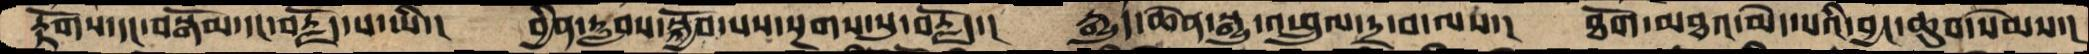རྟོགས་དང་བསྒོམ་དང་བརྗོད་པ་ཡི་།  བྱིན་རླབས་སྐྱོབ་པས་སྔགས་སུ་བརྗོད་།  རྒྱུད་ཆེན་སྒྱུ་འཕྲུལ་དྲ་བ་ལས་།  ཐོག་མཐའ་མེད་པའི་བྱང་ཆུབ་སེམས་།
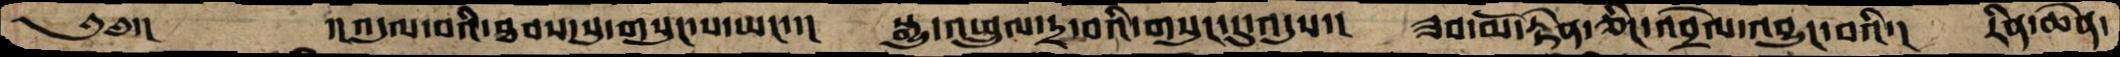༄༅་།       ་།འདུལ་བའི་ཐབས་སུ་གསུང་པ་ཡང་་།  སྒྱུ་འཕྲུལ་དྲ་བའི་གསུང་དུ་འདུས་།  ཟབ་མོ་རྟེན་ཅིང་འབྲེལ་འབྱུང་བའི་།  རིན་ཆེན་
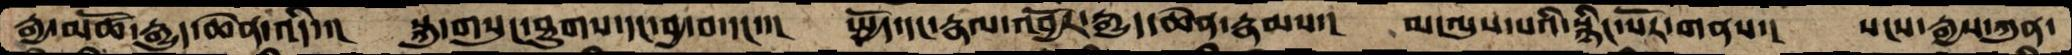རྒྱ་མཚོ་རྒྱུད་ཆེན་འདི་།  སྐུ་གསུང་ཐུགས་དང་བྱ་བ་དང་་།  སྤྱོད་དང་རྣལ་འབྱོར་རྒྱུད་ཆེན་རྣམས་།  མ་ལུས་པའི་སྙིང་པོར་གནས་།  སངས་རྒྱས་ཀུན་
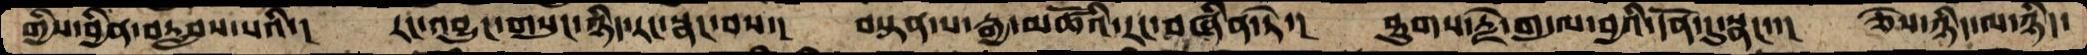གྱིས་བྱིན་བརླབས་པའི་།  རང་འབྱུང་གསུང་ཉིད་རང་སྣང་བས་།  བསྟན་པ་རྒྱ་མཚོའི་རང་བཞིན་ཏེ་།  ཐུགས་རྗེ་གདུལ་བྱའི་དོན་དུ་སྣང་་།  ཅེས་ཉིད་ལ་ཉིད་
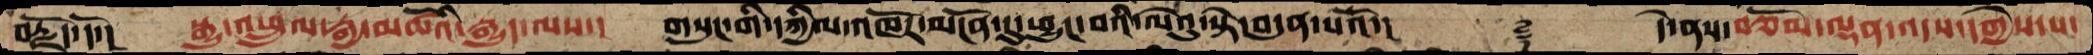བརྗོད་དོ་།   སྒྱུ་འཕྲུལ་རྒྱ་མཚོའི་རྒྱུད་ལས་།   གསུང་གི་དཀྱིལ་འཁོར་མངོན་དུ་ཕྱུང་བའི་ལེའུ་སྟེ་བདུན་པའོ་།     ࿑  དེ་ནས་བཅོམ་ལྡན་འདས་དགྱེས་པ་
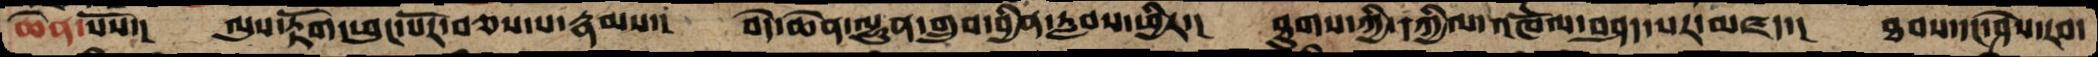ཆེན་པོས་།    ལུས་རྟོག་ཕུང་པོར་བཅས་པ་རྣམས་།  བདེ་ཆེན་ལྷུན་གྲུབ་བྱིན་རླབས་ཕྱིར་།  ཐུགས་ཀྱི་དཀྱིལ་འཁོར་བཤད་པར་མཛད་།  ཐབས་དང་ཤེས་རབ་
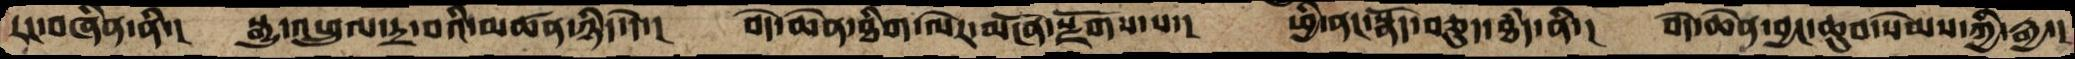རང་བཞིན་ནི་།   སྒྱུ་འཕྲུལ་དྲ་བའི་མཚན་ཉིད་དེ་།  བདེ་ཆེན་ཐིག་ལེར་མངོན་སྫོགས་པ་།  ཕྱི་ནང་སྣོད་བཅུད་ཐཾད་ནི་།  བདེ་ཆེན་བྱང་ཆུབ་སེམས་ཀྱི་རྒྱ་།
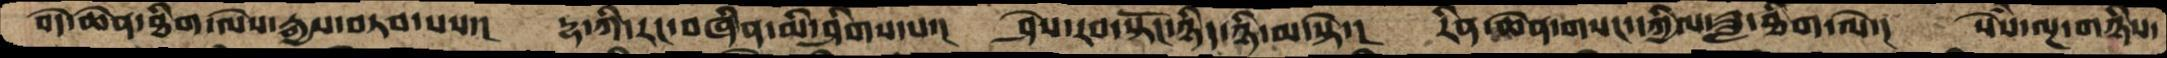བདེ་ཆེན་ཐིག་ལེས་རྒྱས་བཏབ་པས་།   དྷ་ཀི་རང་བཞིན་མི་ཤིགས་པ་།  ཤེས་རབ་སྟོང་ཉིད་ཉི་མ་སྟེ་།  རིན་ཆེན་གསང་དཀྱིལ་ཟླ་ཐིག་ལེ་།  སེཾས་ལྔ་གཉིས་
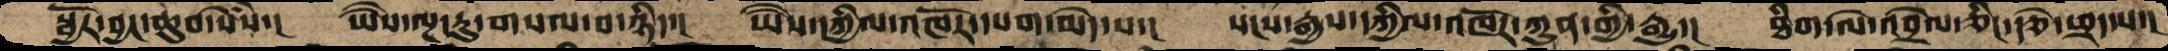སྦྱོར་བྱང་ཆུབ་སེཾས་།  ཡཻས་ལྔ་རུ་གསལ་བ་ཉིད་།  ཡཻས་དཀྱིལ་འཁོར་དཔག་མེད་པ་།  སངས་རྒྱས་དཀྱིལ་འཁོར་ཀུན་གྱི་རྒྱུད་།  ཐིག་ལེ་འབྲེལ་ཅིང་རྩེ་ཕྲད་པ་།
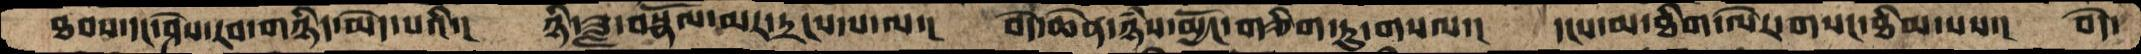ཐབས་དང་ཤེས་རབ་གཉིས་མེད་པའི་།  ཉི་ཟླ་བསྣོལ་མར་དྲངས་པ་ལ་།  བདེ་ཆེན་ཉཾས་མྱོང་གཅིག་ཏུ་གསལ་།  དངས་མ་ཐིག་ལེར་གསང་ཐིམ་པས་།  བདེ་
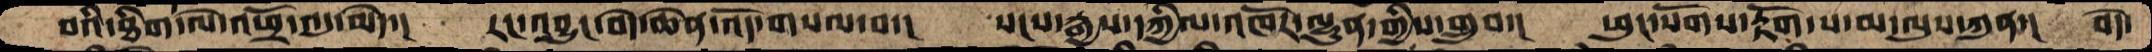བའི་ཐིག་ལེ་འཕྲོ་འདུ་མེད་།  རང་འབྱུང་བདེ་ཆེན་འོད་གསལ་བ་།  སངས་རྒྱས་དཀྱིལ་འཁོར་ལྷུན་གྱིས་གྲུབ་།  ཕུང་སོགས་རྟོག་པ་མ་ལུས་ཀུན་།  བདེ་
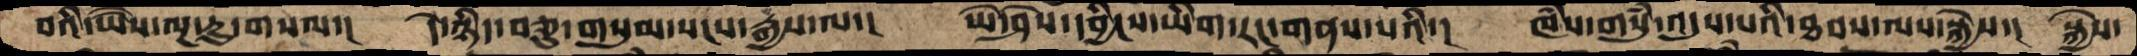བའི་ཡཻས་ལྔ་རུ་གསལ་།  དེ་ཉིད་བཅུ་གསུམ་སངས་རྒྱས་ལ་།  ཡེ་ཤེས་དབྱིངས་ཡིག་རང་གནས་པའི་།  ཁཾས་གསུཾ་འདུས་པའི་ཐབས་ལས་སྐྱེས་།  སྐྱེས་
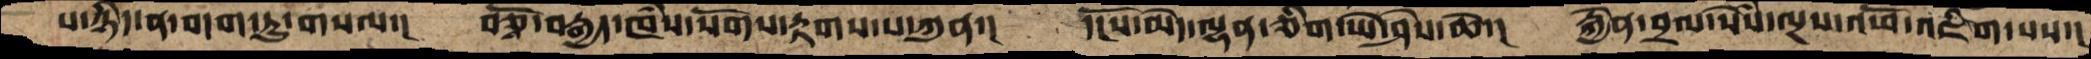ས་ཉིད་ན་བདག་ཏུ་གསལ་།  བཅྭོ་བརྒྱད་ཁཾས་སོགས་རྟགས་པ་ཀུན་།  དངོས་མེད་ལྷན་ཅིག་ཡེ་ཤེས་ཆེ་།  རྐྱེན་བྲལ་སེཾས་ལྔས་འཕོ་འཇིག་པས་།
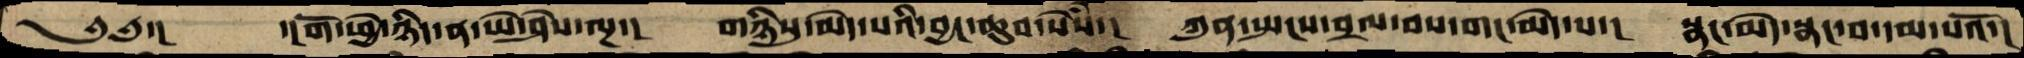༄༅་།    ་།གོ་ཕྱེ་ཉིད་ན་ཡེ་ཤེས་ལྔ་།  གཉིསུ་མེད་པའི་བྱང་ཆུབ་སེཾས་།  ཀུན་སྤངས་བྲལ་བས་གང་མེད་པ་།  སྣང་མེད་སྣང་བ་དམ་པའོ་།
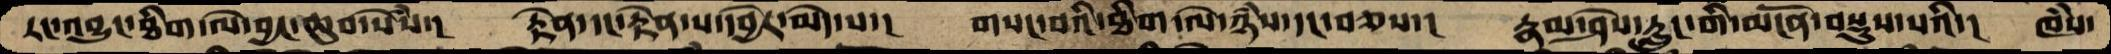རང་འབྱུང་ཐིག་ལེ་བྱང་ཆུབ་སེཾས་།  རྟེན་དང་རྟེན་པ་དབྱེར་མེད་པ་།  གསང་བའི་ཐིག་ལེ་ཉཾས་དང་བཅས་།  རྣམ་ཤེས་རླུང་གི་མངོན་བསྡུས་པའི་།  ཁཾས་
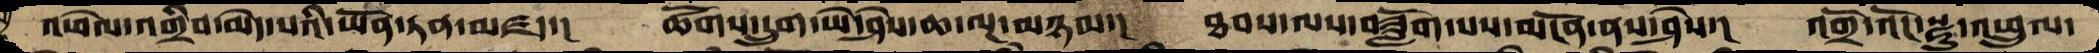འཕེལ་འགྲིབ་མེད་པའི་ཡོན་ཏན་མཛད་།   ཚོགས་དྲུག་ཡེ་ཤེས་ཆ་ལྔ་མཉམ་།  ཐབས་ལས་བཟློག་པས་མོངན་ནས་ཤེས་།  འགྲོ་འོང་སྫུ་འཕྲུལ་
